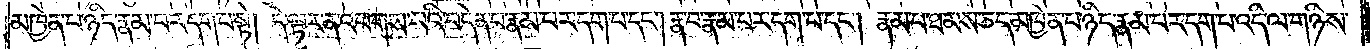མཁྱེན་པ་ཉིད་རྣམ་པར་དག་པ་སྟེ། དེ་ལྟར་ན་འཕགས་པའི་བདེན་པ་རྣམ་པར་དག་པ་དང༌། རྣ་བ་རྣམ་པར་དག་པ་དང༌། རྣམ་པ་ཐམས་ཅད་མཁྱེན་པ་ཉིད་རྣམ་པར་དག་པ་འདི་ལ་གཉིས་
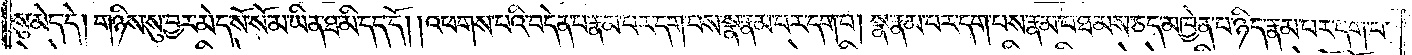སུ་མེད་དེ། གཉིས་སུ་བྱར་མེད་སོ་སོ་མ་ཡིན་ཐ་མི་དད་དོ། །འཕགས་པའི་བདེན་པ་རྣམ་པར་དག་པས་སྣ་རྣམ་པར་དག་པ། སྣ་རྣམ་པར་དག་པས་རྣམ་པ་ཐམས་ཅད་མཁྱེན་པ་ཉིད་རྣམ་པར་དག་པ་
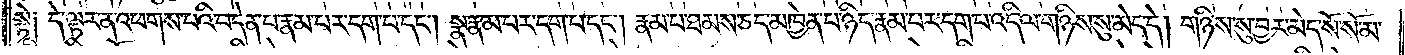སྟེ༑ དེ་ལྟར་ན་འཕགས་པའི་བདེན་པ་རྣམ་པར་དག་པ་དང༌། སྣ་རྣམ་པར་དག་པ་དང༌། རྣམ་པ་ཐམས་ཅད་མཁྱེན་པ་ཉིད་རྣམ་པར་དག་པ་འདི་ལ་གཉིས་སུ་མེད་དེ། གཉིས་སུ་བྱར་མེད་སོ་སོ་མ་
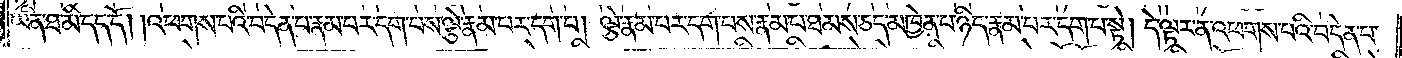ཡིན་ཐ་མི་དད་དོ། །འཕགས་པའི་བདེན་པ་རྣམ་པར་དག་པས་ལྕེ་རྣམ་པར་དག་པ། ལྕེ་རྣམ་པར་དག་པས་རྣམ་པ་ཐམས་ཅད་མཁྱེན་པ་ཉིད་རྣམ་པར་དག་པ་སྟེ། དེ་ལྟར་ན་འཕགས་པའི་བདེན་པ་
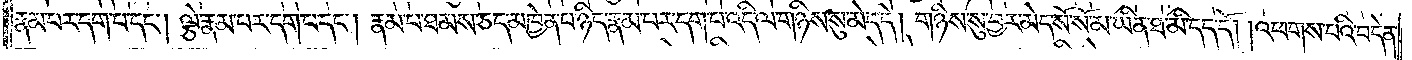རྣམ་པར་དག་པ་དང༌། ལྕེ་རྣམ་པར་དག་པ་དང༌། རྣམ་པ་ཐམས་ཅད་མཁྱེན་པ་ཉིད་རྣམ་པར་དག་པ་འདི་ལ་གཉིས་སུ་མེད་དེ། གཉིས་སུ་བྱར་མེད་སོ་སོ་མ་ཡིན་ཐ་མི་དད་དོ། །འཕགས་པའི་བདེན་
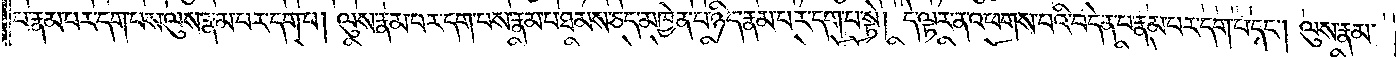པ་རྣམ་པར་དག་པས་ལུས་རྣམ་པར་དག་པ། ལུས་རྣམ་པར་དག་པས་རྣམ་པ་ཐམས་ཅད་མཁྱེན་པ་ཉིད་རྣམ་པར་དག་པ་སྟེ། དེ་ལྟར་ན་འཕགས་པའི་བདེན་པ་རྣམ་པར་དག་པ་དང༌། ལུས་རྣམ་
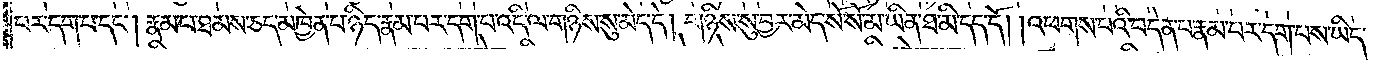པར་དག་པ་དང༌། རྣམ་པ་ཐམས་ཅད་མཁྱེན་པ་ཉིད་རྣམ་པར་དག་པ་འདི་ལ་གཉིས་སུ་མེད་དེ། གཉིས་སུ་བྱར་མེད་སོ་སོ་མ་ཡིན་ཐ་མི་དད་དོ། །འཕགས་པའི་བདེན་པ་རྣམ་པར་དག་པས་ཡིད་
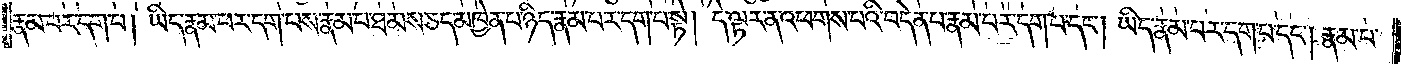རྣམ་པར་དག་པ། ཡིད་རྣམ་པར་དག་པས་རྣམ་པ་ཐམས་ཅད་མཁྱེན་པ་ཉིད་རྣམ་པར་དག་པ་སྟེ། དེ་ལྟར་ན་འཕགས་པའི་བདེན་པ་རྣམ་པར་དག་པ་དང༌། ཡིད་རྣམ་པར་དག་པ་དང༌། རྣམ་པ་
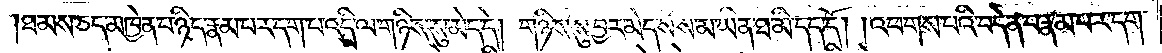ཐམས་ཅད་མཁྱེན་པ་ཉིད་རྣམ་པར་དག་པ་འདི་ལ་གཉིས་སུ་མེད་དེ། གཉིས་སུ་བྱར་མེད་སོ་སོ་མ་ཡིན་ཐ་མི་དད་དོ། །འཕགས་པའི་བདེན་པ་རྣམ་པར་དག་
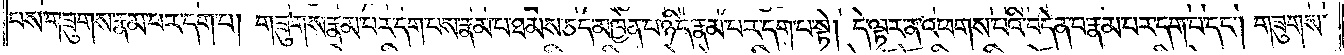པས་གཟུགས་རྣམ་པར་དག་པ། གཟུགས་རྣམ་པར་དག་པས་རྣམ་པ་ཐམས་ཅད་མཁྱེན་པ་ཉིད་རྣམ་པར་དག་པ་སྟེ། དེ་ལྟར་ན་འཕགས་པའི་བདེན་པ་རྣམ་པར་དག་པ་དང༌། གཟུགས་
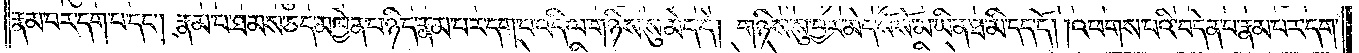རྣམ་པར་དག་པ་དང༌། རྣམ་པ་ཐམས་ཅད་མཁྱེན་པ་ཉིད་རྣམ་པར་དག་པ་འདི་ལ་གཉིས་སུ་མེད་དེ། གཉིས་སུ་བྱར་མེད་སོ་སོ་མ་ཡིན་ཐ་མི་དད་དོ། །འཕགས་པའི་བདེན་པ་རྣམ་པར་དག་
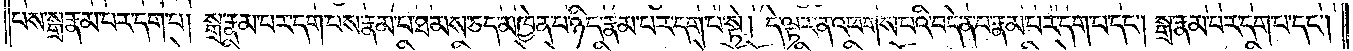པས་སྒྲ་རྣམ་པར་དག་པ། སྒྲ་རྣམ་པར་དག་པས་རྣམ་པ་ཐམས་ཅད་མཁྱེན་པ་ཉིད་རྣམ་པར་དག་པ་སྟེ། དེ་ལྟར་ན་འཕགས་པའི་བདེན་པ་རྣམ་པར་དག་པ་དང༌། སྒྲ་རྣམ་པར་དག་པ་དང༌།
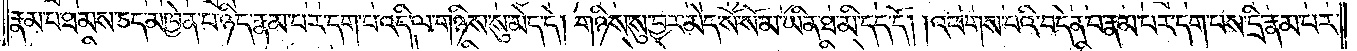རྣམ་པ་ཐམས་ཅད་མཁྱེན་པ་ཉིད་རྣམ་པར་དག་པ་འདི་ལ་གཉིས་སུ་མེད་དེ། གཉིས་སུ་བྱར་མེད་སོ་སོ་མ་ཡིན་ཐ་མི་དད་དོ། །འཕགས་པའི་བདེན་པ་རྣམ་པར་དག་པས་དྲི་རྣམ་པར་
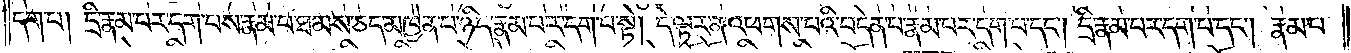དག་པ། དྲི་རྣམ་པར་དག་པས་རྣམ་པ་ཐམས་ཅད་མཁྱེན་པ་ཉིད་རྣམ་པར་དག་པ་སྟེ། དེ་ལྟར་ན་འཕགས་པའི་བདེན་པ་རྣམ་པར་དག་པ་དང༌། དྲི་རྣམ་པར་དག་པ་དང༌། རྣམ་པ་
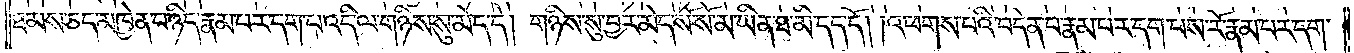ཐམས་ཅད་མཁྱེན་པ་ཉིད་རྣམ་པར་དག་པ་འདི་ལ་གཉིས་སུ་མེད་དེ། གཉིས་སུ་བྱར་མེད་སོ་སོ་མ་ཡིན་ཐ་མི་དད་དོ། །འཕགས་པའི་བདེན་པ་རྣམ་པར་དག་པས་རོ་རྣམ་པར་དག་
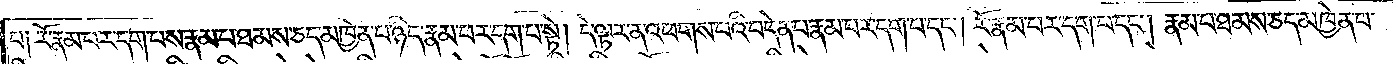པ༑ རོ་རྣམ་པར་དག་པས་རྣམ་པ་ཐམས་ཅད་མཁྱེན་པ་ཉིད་རྣམ་པར་དག་པ་སྟེ། དེ་ལྟར་ན་འཕགས་པའི་བདེན་པ་རྣམ་པར་དག་པ་དང༌། རོ་རྣམ་པར་དག་པ་དང༌། རྣམ་པར་ཐམས་ཅད་མཁྱེན་པ་
